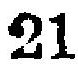21
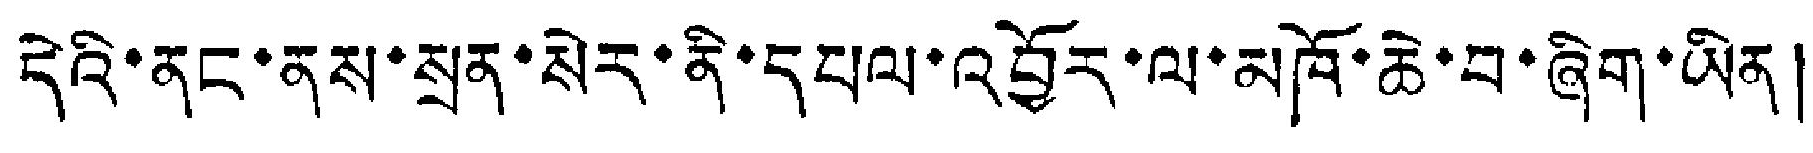དེའི་ནང་ནས་སྲན་སེར་ནི་དཔལ་འབྱོར་ལ་མཁོ་ཆེ་བ་ཞིག་ཡིན།
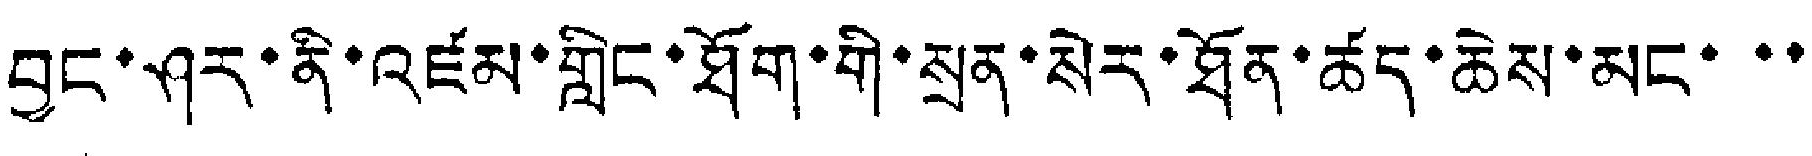བྱང་ཤར་ནི་འཛམ་གླིང་ཐོག་གི་སྲན་སེར་ཐོན་ཚད་ཆེས་མང་་་
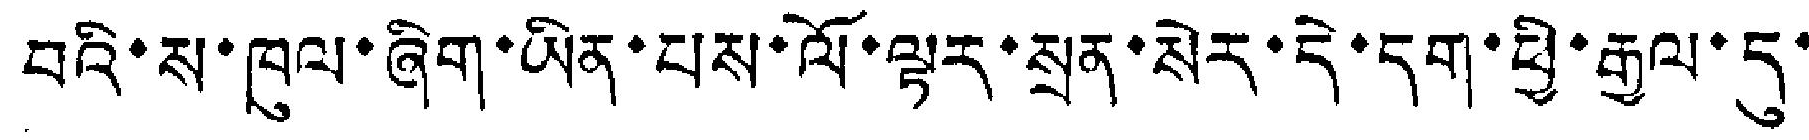བའི་ས་ཁུལ་ཞིག་ཡིན་པས་ལོ་ལྟར་སྲན་སེར་དེ་དག་ཕྱི་རྒྱལ་དུ་
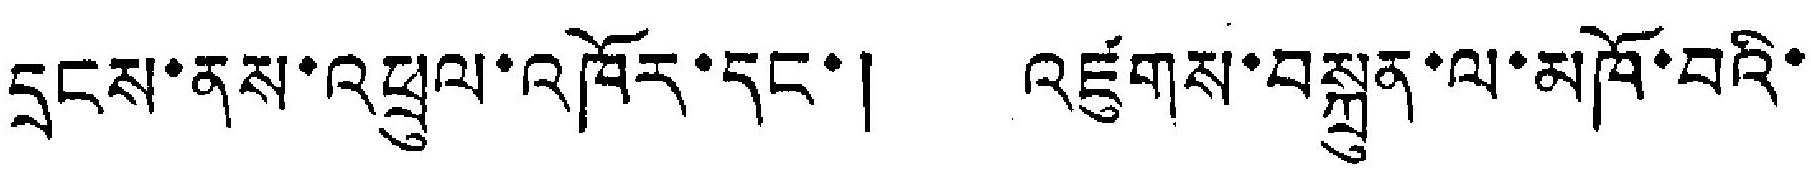དྲངས་ནས་འཕྲུལ་འཁོར་དང་། འཛུགས་བསྐྲུན་ལ་མཁོ་བའི་
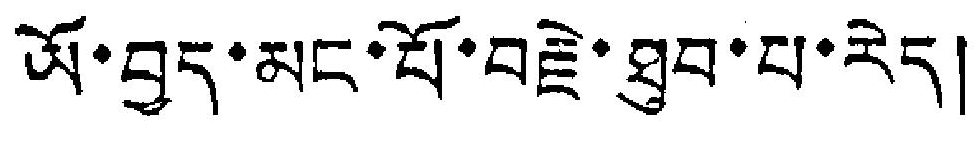ཡོ་བྱད་མང་པོ་བརྗེ་ཐུབ་པ་རེད།
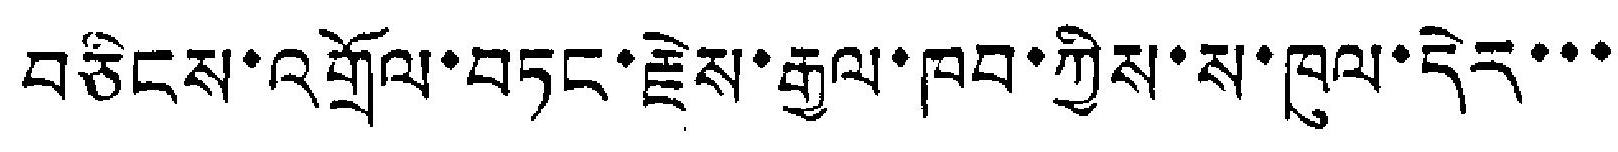བཅིངས་འགྲོལ་གཏང་རྗེས་རྒྱལ་ཁབ་ཀྱིས་ས་ཁུལ་དེར་་་
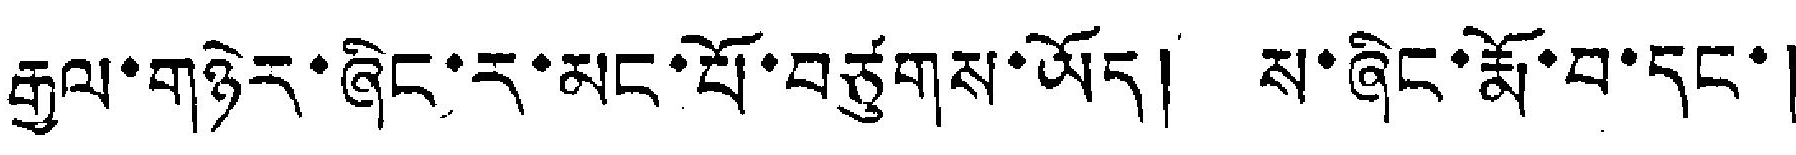རྒྱལ་གཉེར་ཞིང་ར་མང་པོ་བཙུགས་ཡོད། ས་ཞིང་རྨོ་བ་དང་།
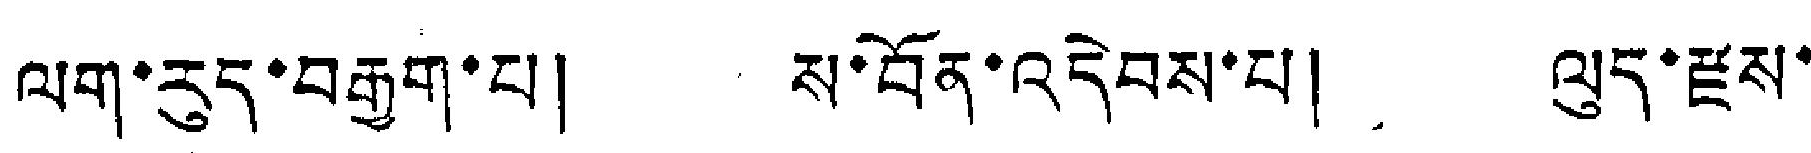ལག་རུད་བརྒྱག་པ། ས་བོན་འདེབས་པ། ལུད་རྫས་
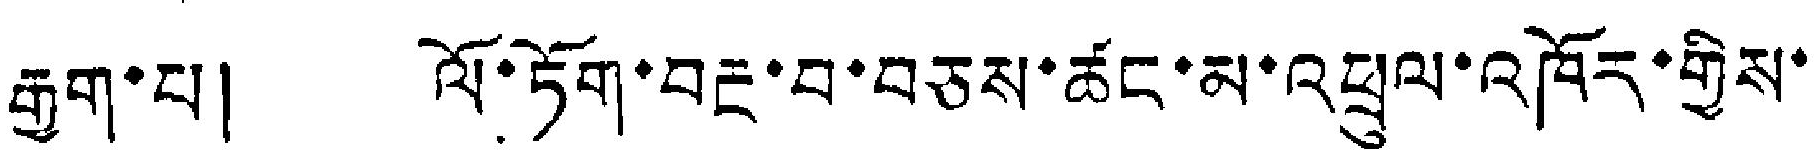རྒྱག་པ། ལོ་ཏོག་བརྔ་བ་བཅས་ཚང་མ་འཕྲུལ་འཁོར་གྱིས་
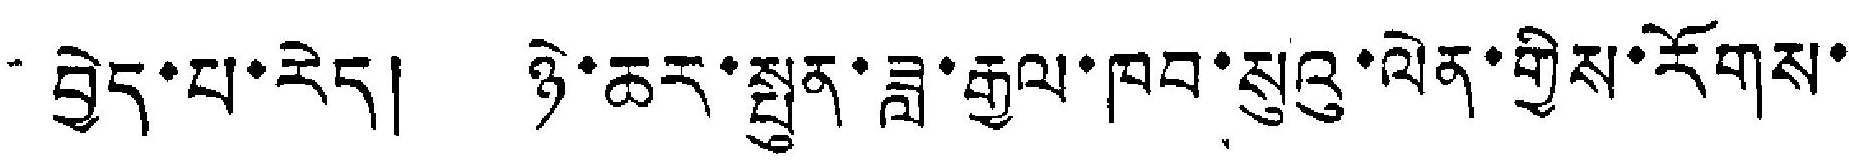བྱེད་པ་རེད། ཉེ་ཆར་སྤུན་ཟླ་རྒྱལ་ཁབ་སུའུ་ལེན་གྱིས་རོགས་
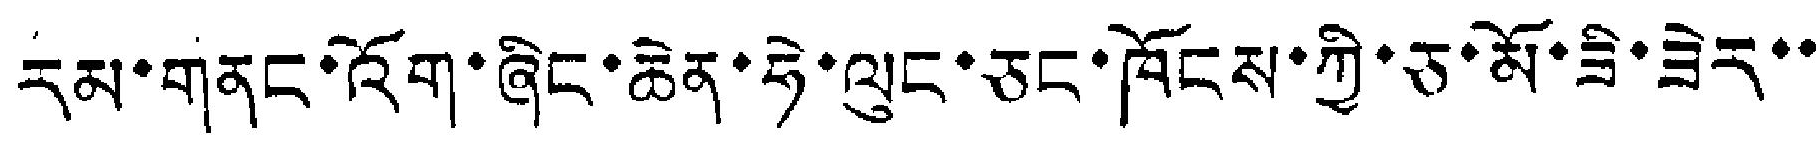རམ་གནང་འོག་ཞིང་ཆེན་ཧེ་ལུང་ཅང་ཁོངས་ཀྱི་ཅ་མོ་ཟི་ཟེར་་
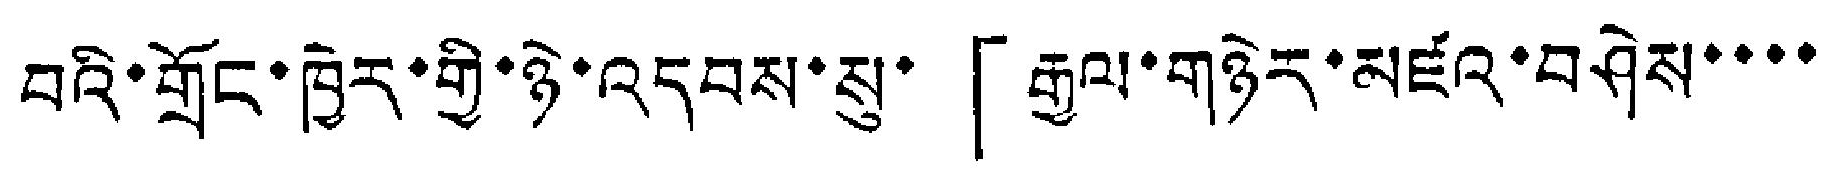བའི་གྲོང་ཁྱེར་གྱི་ཉེ་འདབས་སུ་「རྒྱལ་གཉེར་མཛའ་བཤེས་་་་
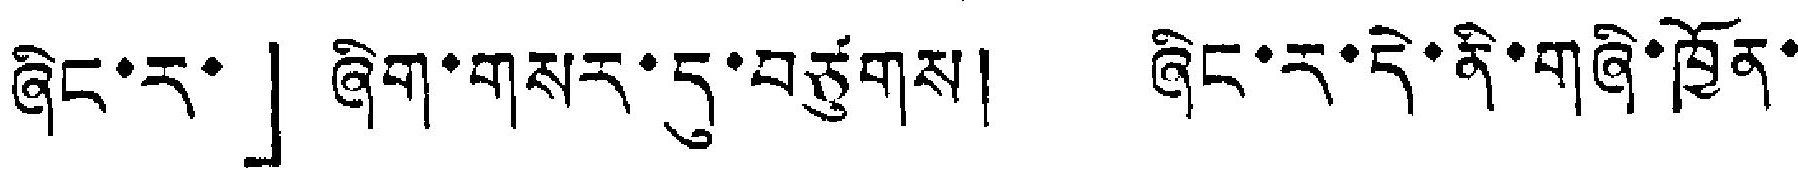ཞིང་ར་」ཞིག་གསར་དུ་བཙུགས། ཞིང་ར་དེ་ནི་གཞི་ཁྱོན་
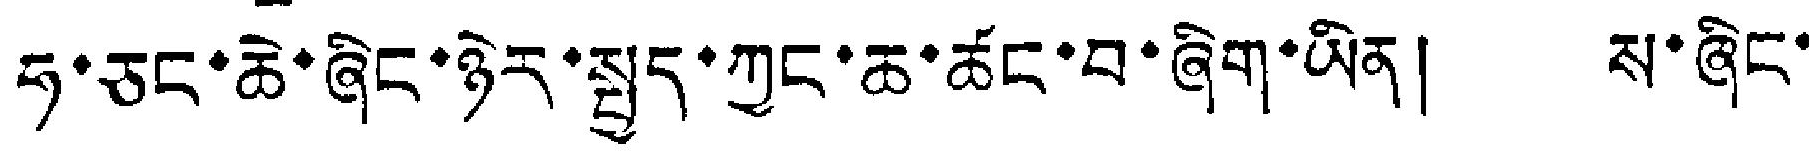ཧ་ཅང་ཆེ་ཞིང་ཉེར་སྤྱད་ཀྱང་ཆ་ཚང་བ་ཞིག་ཡིན། ས་ཞིང་
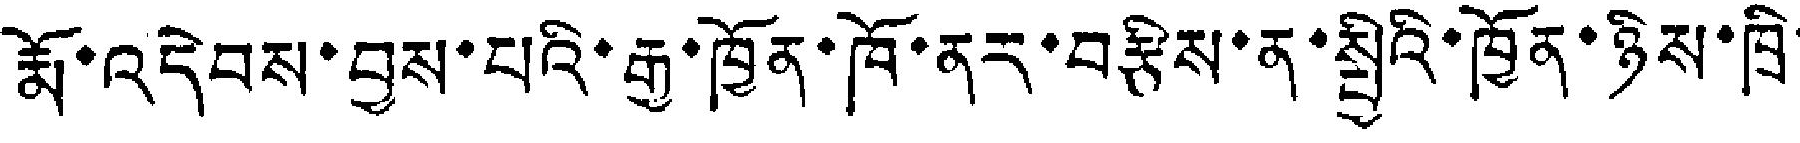རྨོ་འདེབས་བྱས་པའི་རྒྱ་ཁྱོན་ཁོ་ནར་བརྩིས་ན་སྤྱིའི་ཁྱོན་ཉིས་ཁྲི་
